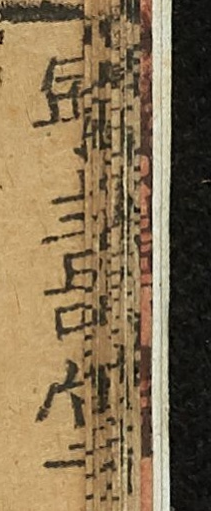寧壽堂
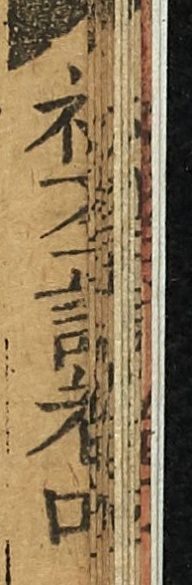初學記卷四
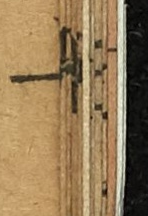十
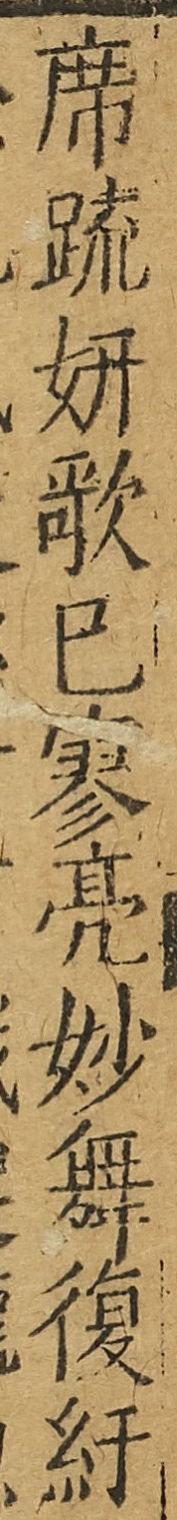席疏妍歌已寥亮妙舞復紆
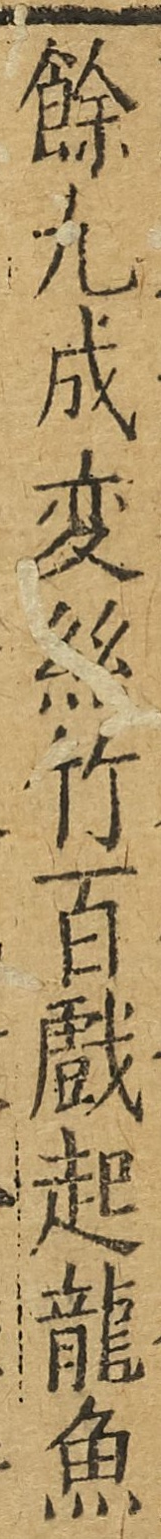餘九成變絲竹百戲起龍魚
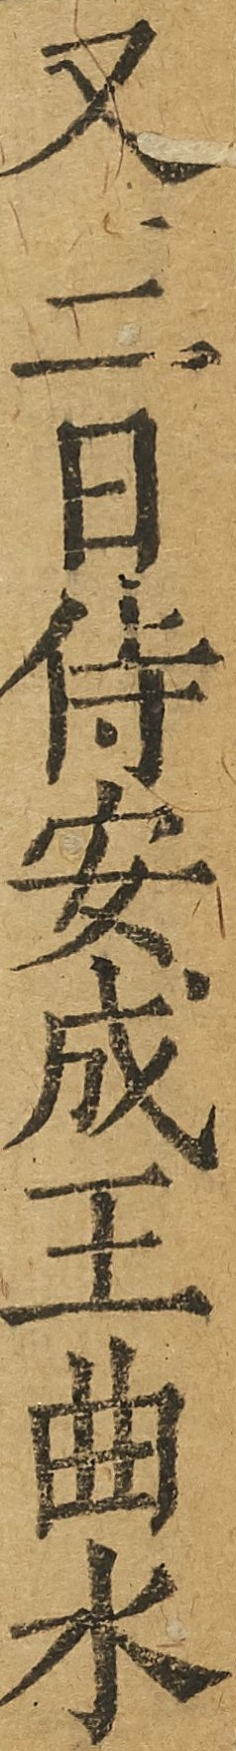又三日侍安成王曲水
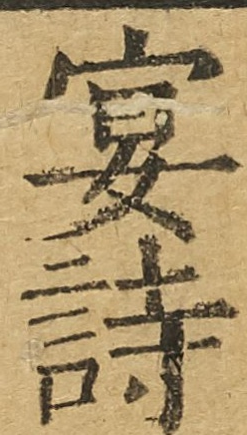宴詩
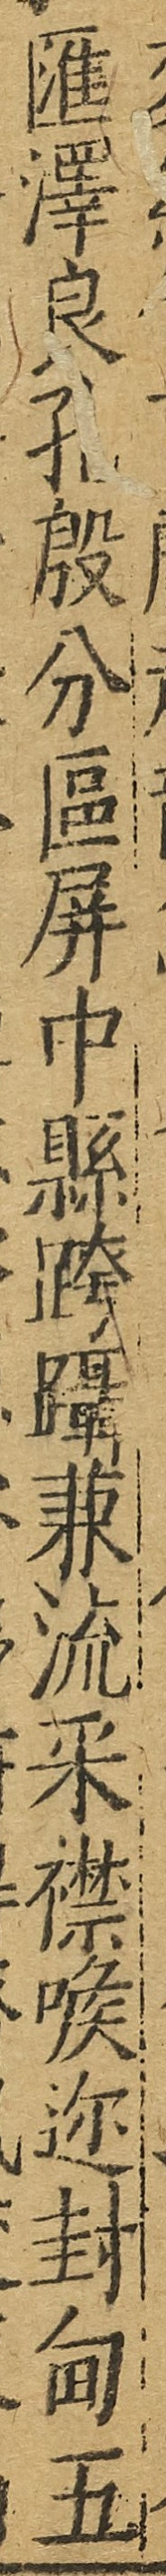滙澤良孔殷分區屏中縣跨躡兼流采襟喉邇封甸五
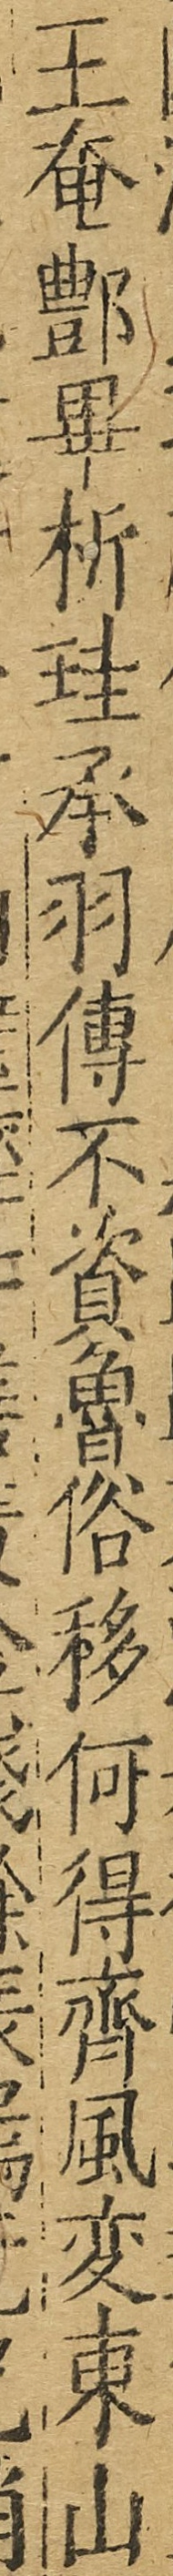王奄鄷畢析珪承羽傳不資魯俗移何得齊風變東山
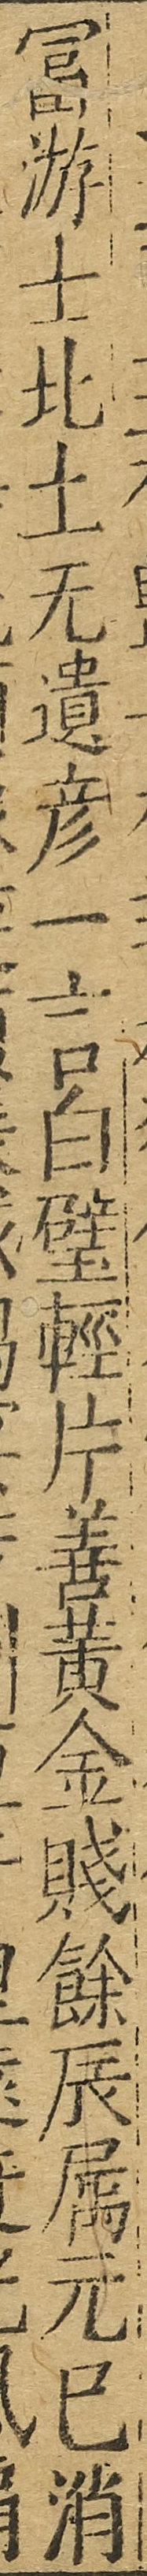富游士北土無遺彥一言白璧輕片善黃金賤餘辰屬元巳消
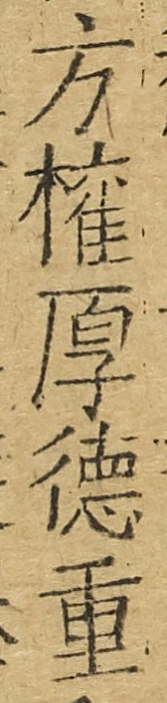方權厚德重
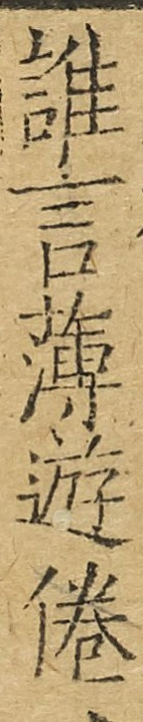誰言薄遊倦
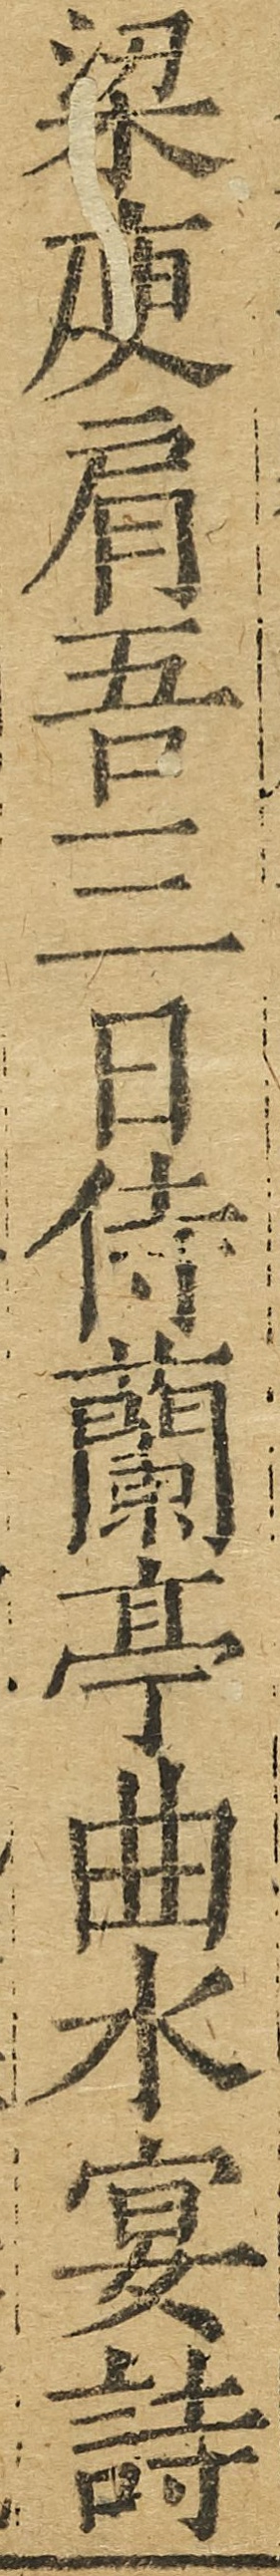梁庾肩吾三日侍蘭亭曲水宴詩
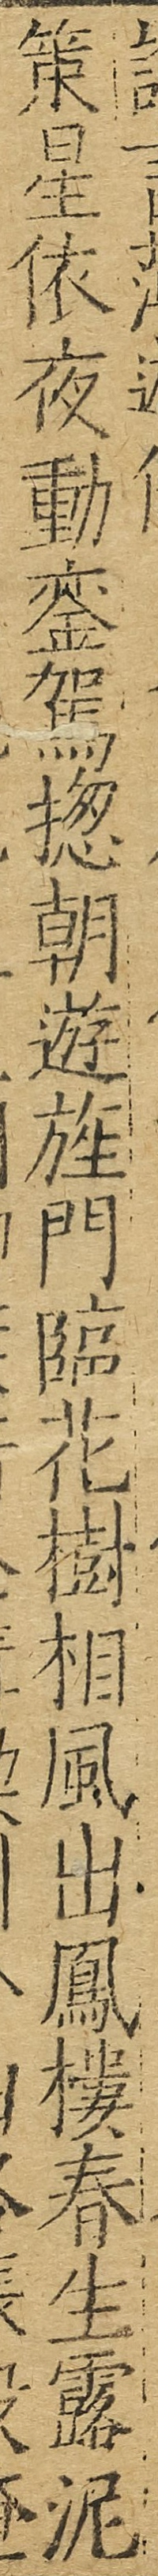策星依夜動鑾駕揔朝遊旌門臨花樹相風出鳳樓春生露泥
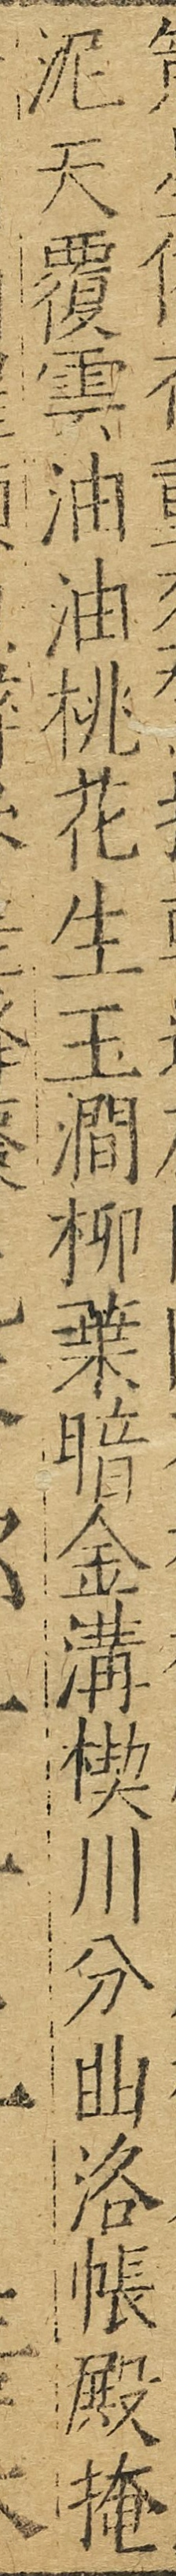泥天覆雲油油桃花生玉澗柳葉暗金溝禊川分曲洛帳殿掩
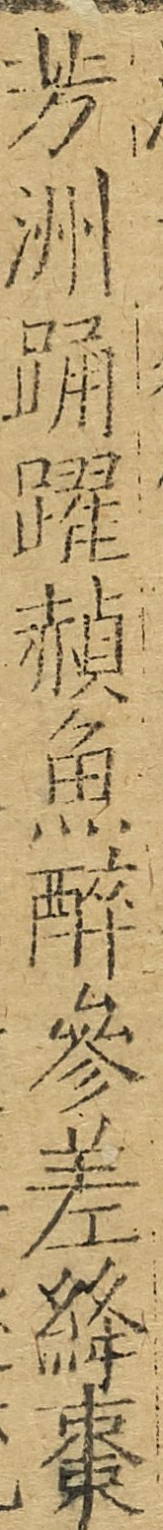芳洲踊躍赬魚醉參差絳棗
